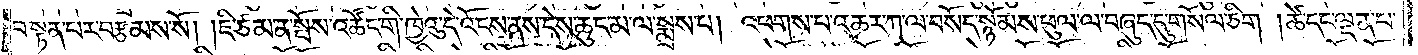བསྟན་པར་བརྩམས་སོ། །ཇི་ཙམ་ན་སྤོས་འཚོང་གི་ཁྱེའུ་དེ་འོངས་ནས་དེས་ཆུང་མ་ལ་སྨྲས་པ། འཕགས་པ་འཆར་ཀ་ལ་བསོད་སྙོམས་ཕུལ་ལ་བཞུད་དུ་གསོལ་ཅིག །ཚེ་དང་ལྡན་པ་
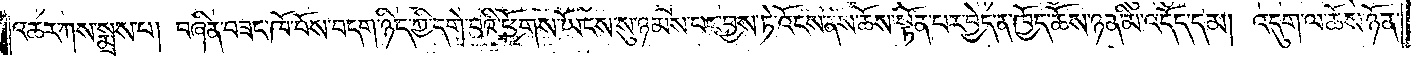འཆར་ཀས་སྨྲས་པ། བཞིན་བཟང་ཁོ་བོས་བདག་ཉིད་ཀྱི་དགེ་བའི་ཕྱོགས་ཡོངས་སུ་ཉམས་པར་བྱས་ཏེ་འོངས་ནས་ཆོས་སྟོན་པར་བྱེད་ན་ཁྱོད་ཆོས་ཉན་མི་འདོད་དམ། འདུག་ལ་ཆོས་ཉོན་
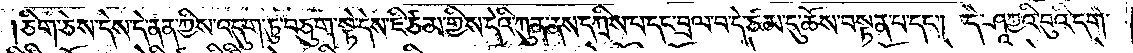།ཅིག་ཅེས་དེས་དེ་ནན་ཀྱིས་འདུག་ཏུ་བཅུག་སྟེ་དེས་ཇི་ཙམ་གྱིས་དེའི་ཀུན་ནས་དཀྲིས་པ་དང་བྲལ་བ་དེ་ཙམ་དུ་ཆོས་བསྟན་པ་དང༌། དེ་ཤཱཀྱའི་བུའི་དགེ་
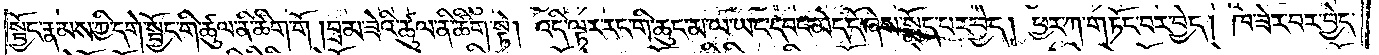སྦྱོང་རྣམས་ཀྱི་དགེ་སྦྱོང་གི་ཚུལ་ནི་ཚིག་གོ །བྲམ་ཟེའི་ཚུལ་ནི་ཚིག་སྟེ། འདི་ལྟར་རང་གི་ཆུང་མ་ལ་ཡང་དབང་མེད་དོ་ཞེས་སྨོད་པར་བྱེད། ཕྱར་ཀ་གཏོང་བར་བྱེད། ཁ་ཟེར་བར་བྱེད་
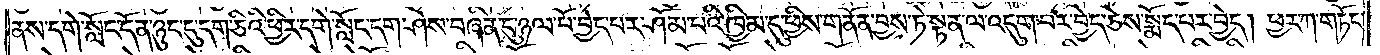ནས་དགེ་སློང་དོན་ཉུང་དུ་དག་ཅིའི་ཕྱིར་དགེ་སློང་དག་ཤེས་བཞིན་དུ་ཉལ་པོ་བྱེད་པར་ཤོམ་པའི་ཁྱིམ་དུ་ཕྱིས་གནོན་བྱས་ཏེ་སྟན་ལ་འདུག་པར་བྱེད་ཅེས་སྨོད་པར་བྱེད། ཕྱར་ཀ་གཏོང་
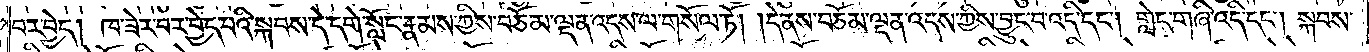བར་བྱེད། ཁ་ཟེར་བར་བྱེད་པའི་སྐབས་དེ་དགེ་སློང་རྣམས་ཀྱིས་བཅོམ་ལྡན་འདས་ལ་གསོལ་ཏོ། །དེ་ནས་བཅོམ་ལྡན་འདས་ཀྱིས་བྱུང་བ་འདི་དང༌། གླེང་གཞི་འདི་དང༌། སྐབས་
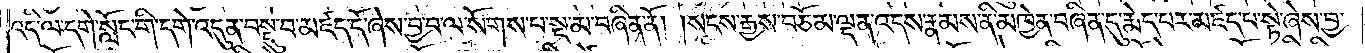འདི་ལ་དགེ་སློང་གི་དགེ་འདུན་བསྡུ་བ་མཛད་དོ་ཞེས་བྱ་བ་ལ་སོགས་པ་སྔ་མ་བཞིན་ནོ། །སངས་རྒྱས་བཅོམ་ལྡན་འདས་རྣམས་ནི་མཁྱེན་བཞིན་དུ་རྨེད་པར་མཛད་པ་སྟེ་ཞེས་བྱ་
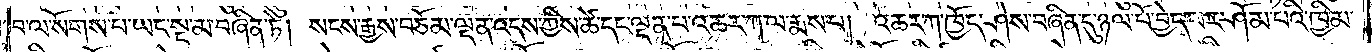བ་ལ་སོགས་པ་ཡང་སྔ་མ་བཞིན་ཏེ། སངས་རྒྱས་བཅོམ་ལྡན་འདས་ཀྱིས་ཚེ་དང་ལྡན་པ་འཆར་ཀ་ལ་རྨས་པ། འཆར་ཀ་ཁྱོད་ཤེས་བཞིན་དུ་ཉལ་པོ་བྱེད་པར་ཤོམ་པའི་ཁྱིམ་
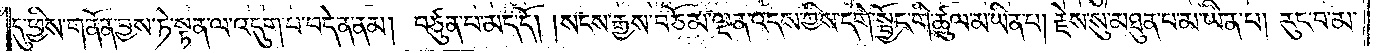དུ་ཕྱིས་གནོན་བྱས་ཏེ་སྟན་ལ་འདུག་པ་བདེན་ནམ། བཙུན་པ་མད་དོ། །སངས་རྒྱས་བཅོམ་ལྡན་འདས་ཀྱིས་དགེ་སྦྱོང་གི་ཚུལ་མ་ཡིན་པ། རྗེས་སུ་མཐུན་པ་མ་ཡིན་པ། རུང་བ་མ་
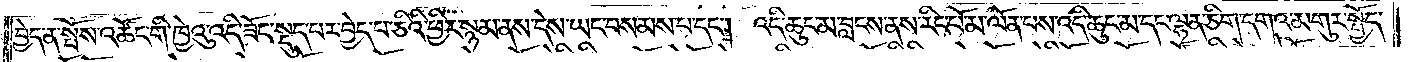བྱེད་ན་སྤོས་འཚོང་གི་ཁྱེའུ་འདི་ཟོང་སྡུད་པར་བྱེད་པ་ཅིའི་ཕྱིར་སྙམ་ནས་དེས་ཡང་བསམས་པ་དང༌། འདི་ཆུང་མ་བླངས་ནས་རིང་པོ་མ་ལོན་པས་འདི་ཆུང་མ་དང་ལྷན་ཅིག་དགའ་མགུར་སྤྱོད་
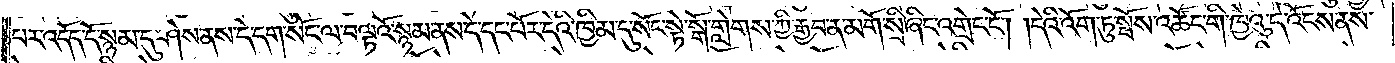པར་འདོད་དོ་སྙམ་དུ་ཤེས་ནས་དེ་དག་སོང་ལ་བལྟའོ་སྙམ་ནས་དེ་དང་པོར་དེའི་ཁྱིམ་དུ་སོང་སྟེ་སྒོ་གླེགས་ཀྱི་རྒྱབ་ན་མགོ་སྲི་ཞིང་འགྲེང་ངོ༌། །དེའི་འོག་ཏུ་སྤོས་འཚོང་གི་ཁྱེའུ་དེ་འོངས་ནས་
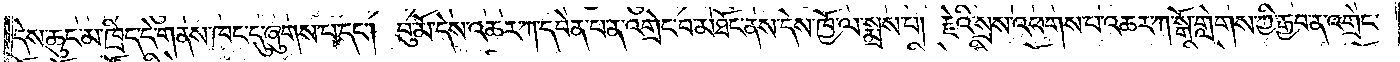དེས་ཆུང་མ་ཁྲིད་དེ་གནས་ཁང་དུ་ཞུགས་པ་དང༌། བུ་མོ་དེས་འཆར་ཀ་དབེན་པ་ན་འགྲེང་བ་མཐོང་ནས་དེས་ཁྱོ་ལ་སྨྲས་པ། རྗེའི་སྲས་འཕགས་པ་འཆར་ཀ་སྒོ་གླེགས་ཀྱི་རྒྱབ་ན་འགྲེང་
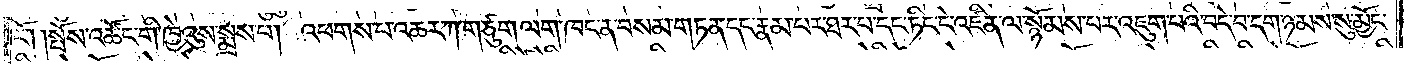ངོ༌། །སྤོས་འཚོང་གི་ཁྱེའུས་སྨྲས་པ། འཕགས་པ་འཆར་ཀ་གཙུག་ལག་ཁང་ན་བསམ་གཏན་དང་རྣམ་པར་ཐར་པ་དང་ཏིང་ངེ་འཛིན་ལ་སྙོམས་པར་འཇུག་པའི་བདེ་བ་དག་ཉམས་སུ་མྱོང་
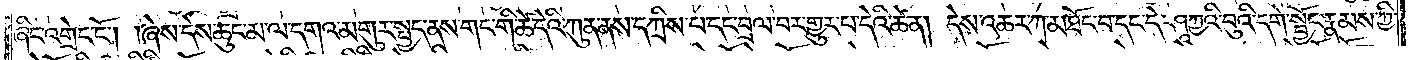ཞིང་འགྲེང་ངོ༌། །ཞེས་དེས་ཆུང་མ་ལ་དགའ་མགུར་སྤྱད་ནས་གང་གི་ཚེ་དེའི་ཀུན་ནས་དཀྲིས་པ་དང་བྲལ་བར་གྱུར་པ་དེའི་ཚེ་ན། དེས་འཆར་ཀ་མཐོང་བ་དང་དེ་ཤཱཀྱའི་བུའི་དགེ་སྦྱོང་རྣམས་ཀྱི་
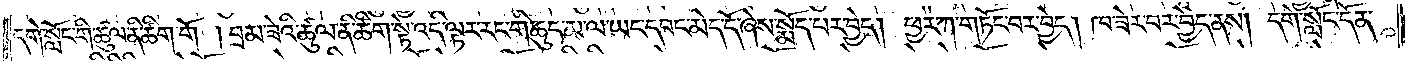དགེ་སློང་གི་ཚུལ་ནི་ཚིག་གོ །བྲམ་ཟེའི་ཚུལ་ནི་ཚིག་སྟེ་འདི་ལྟར་རང་གི་ཆུང་མ་ལ་ཡང་དབང་མེད་དོ་ཞེས་སྨོད་པར་བྱེད། ཕྱར་ཀ་གཏོང་བར་བྱེད། ཁ་ཟེར་བར་བྱེད་ནས། དགེ་སློང་དོན་
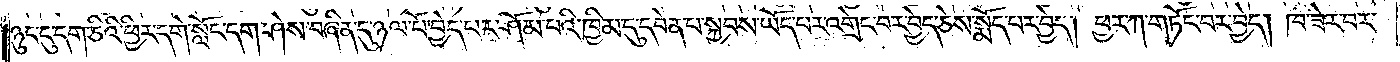ཉུང་དུ་དག་ཅིའི་ཕྱིར་དགེ་སློང་དག་ཤེས་བཞིན་དུ་ཉལ་པོ་བྱེད་པར་ཤོམ་པའི་ཁྱིམ་དུ་དབེན་པ་སྐྱབས་ཡོད་པར་འགྲེང་བར་བྱེད་ཅེས་སྨོད་པར་བྱེད། ཕྱར་ཀ་གཏོང་བར་བྱེད། ཁ་ཟེར་བར་
